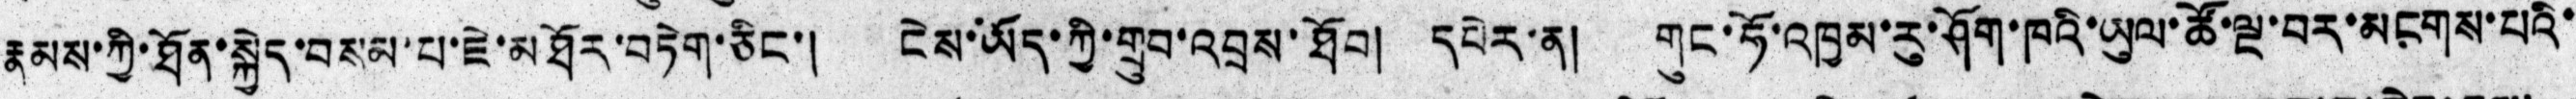རྣམས་ཀྱི་ཐོན་སྐྱེད་བསམ་པ་ཇེ་མཐོར་བཏེག་ཅིང་། ངེས་ཡོད་ཀྱི་གྲུབ་འབྲས་ཐོབ། དཔེར་ན། གུང་ཧོ་འཁྱམ་རུ་ཤོག་ཁའི་ཡུལ་ཚོ་ལྔ་བར་མངགས་པའི་
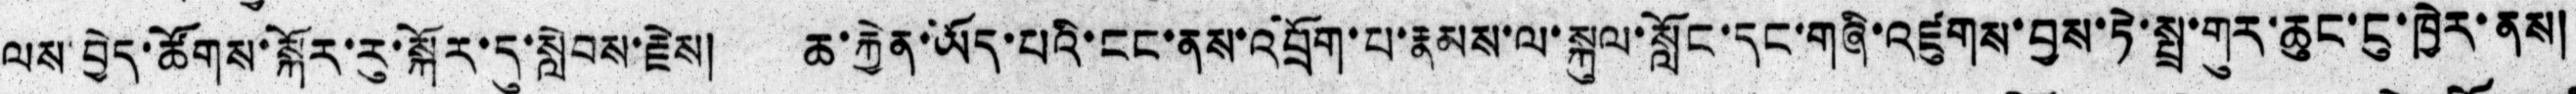ལས་བྱེད་ཚོགས་སྐོར་རུ་སྐོར་དུ་སླེབས་རྗེས། ཆ་རྐྱེན་ཡོད་པའི་ངང་ནས་འབྲོག་པ་རྣམས་ལ་སྐུལ་སློང་དང་གཞི་འཛུགས་བྱས་ཏེ་སྤྲ་གུར་ཆུང་ངུ་ཁྱེར་ནས།
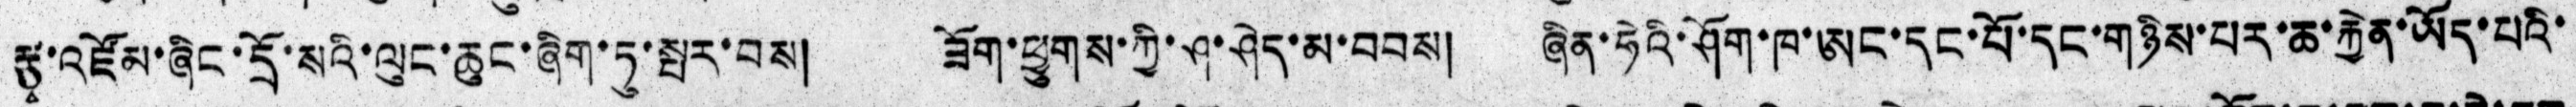རྩྭ་འཛོམ་ཞིང་དྲོ་སའི་ལུང་ཆུང་ཞིག་ཏུ་སྤར་བས།  ཟོག་ཕྱུགས་ཀྱི་ཤ་ཤེད་མ་བབས།  ཞིན་ཧེའི་ཤོག་ཁ་ཨང་དང་པོ་དང་གཉིས་པར་ཆ་རྐྱེན་ཡོད་པའི་
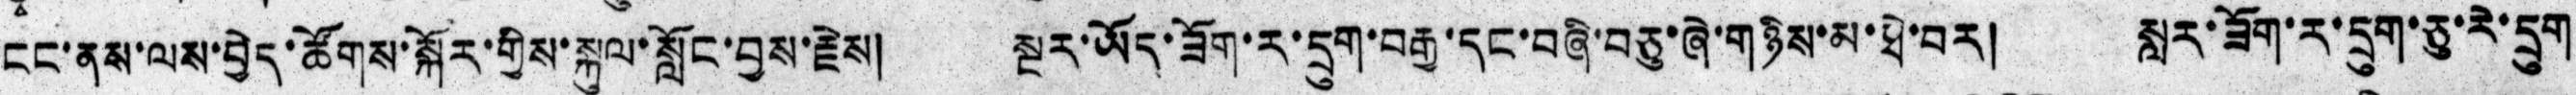ངང་ནས་ལས་བྱེད་ཚོགས་སྐོར་གྱིས་སྐུལ་སློང་བྱས་རྗེས། སྔར་ཡོད་ཟོག་ར་དྲུག་བརྒྱ་དང་བཞི་བཅུ་ཞེ་གཉིས་མ་ཐེ་བར། སླར་ཟོག་ར་དྲུག་ཅུ་རེ་དྲུག
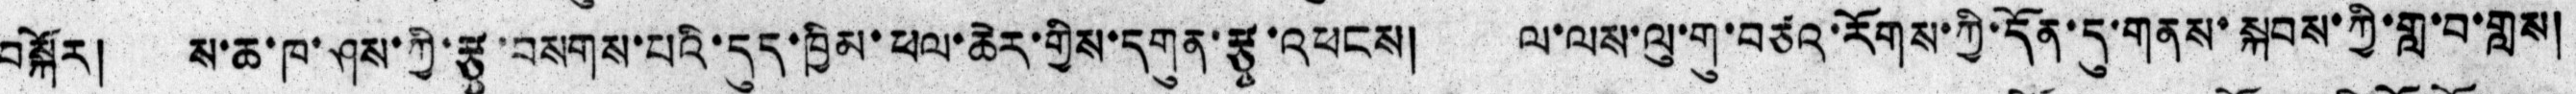བསྐོར།   ས་ཆ་ཁ་ཤས་ཀྱི་རྩྭ་བསགས་པའི་དུད་ཁྱིམ་ཕལ་ཆེར་གྱིས་དགུན་རྩྭ་འཕངས།  ལ་ལས་ལུ་གུ་བཙའ་རོགས་ཀྱི་དོན་དུ་གནས་སྐབས་ཀྱི་གླ་བ་གླས།
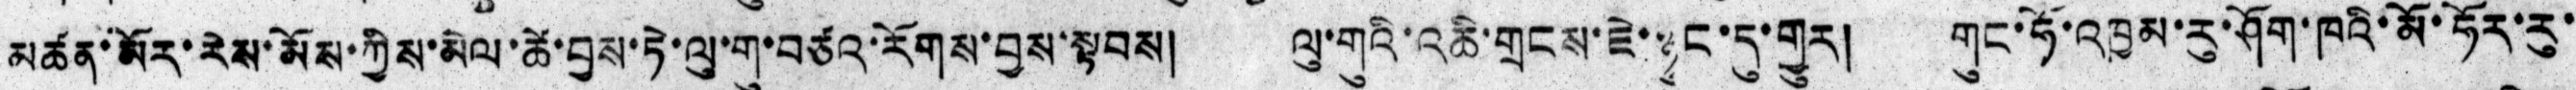མཚན་མོར་རེས་མོས་ཀྱིས་མེལ་ཚེ་བྱས་ཏེ་ལུ་གུ་བཙའ་རོགས་བྱས་སྟབས།  ལུ་གུའི་འཆི་གྲངས་ཇེ་ཉུང་དུ་གྱུར།  གུང་ཧོ་འཁྱམ་རུ་ཤོག་ཁའི་མོ་ཧོར་རུ་
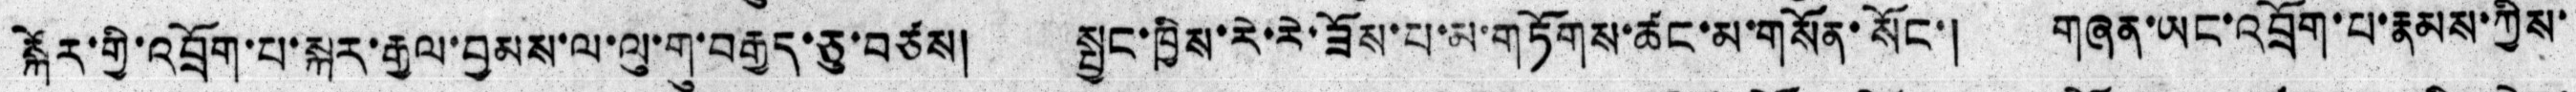སྐོར་གྱི་འབྲོག་པ་སྐར་རྒྱལ་བྱམས་ལ་ལུ་གུ་བརྒྱད་ཅུ་བཙས། སྤྱང་ཁྱིས་རེ་རེ་ཟོས་པ་མ་གཏོགས་ཚང་མ་གསོན་སོང་། གཞན་ཡང་འབྲོག་པ་རྣམས་ཀྱིས་
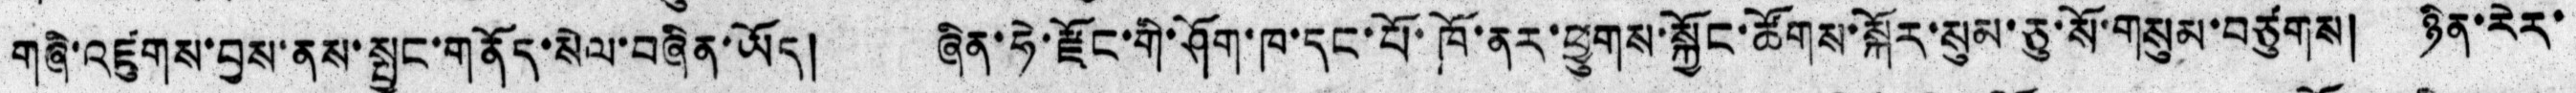གཞི་འཛུགས་བྱས་ནས་སྤྱང་གནོད་སེལ་བཞིན་ཡོད། ཞིན་ཧེ་རྫོང་གི་ཤོག་ཁ་དང་པོ་ཁོ་ནར་ཕྱུགས་སྐྱོང་ཚོགས་སྐོར་སུམ་ཅུ་སོ་གསུམ་བཙུགས། ཉིན་རེར་
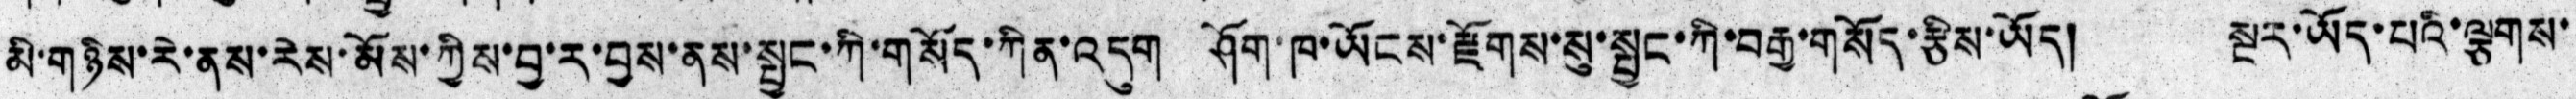མི་གཉིས་རེ་ནས་རེས་མོས་ཀྱིས་བྱ་ར་བྱས་ནས་སྤྱང་ཀི་གསོད་ཀིན་འདུག ཤོག་ཁ་ཡོངས་རྫོགས་སུ་སྦྱང་ཀི་བརྒྱ་གསོད་རྩིས་ཡོད། སྔར་ཡོད་པའི་ལྕགས་
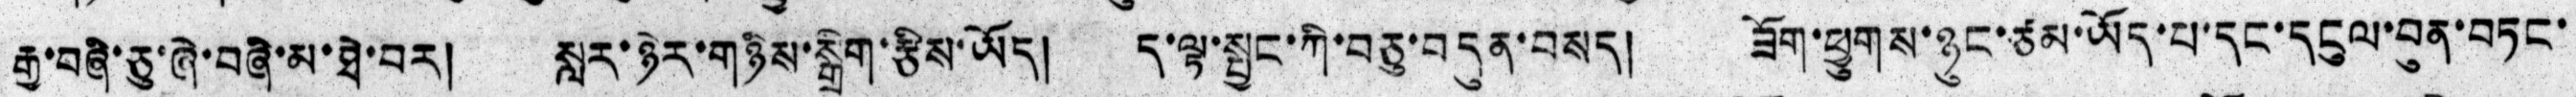རྒྱ་བཞི་ཅུ་ཞེ་བཞི་མ་ཐེ་བར།  སླར་ཉེར་གཉིས་སྒྲིག་རྩིས་ཡོད།  ད་ལྟ་སྤྱང་ཀི་བཅུ་བདུན་བསད།  ཟོག་ཕྱུགས་ཉུང་ཙམ་ཡོད་པ་དང་དངུལ་བུན་བཏང་
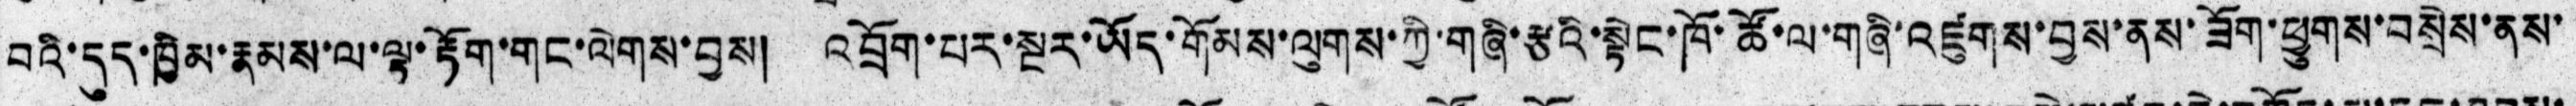བའི་དུད་ཁྱིམ་རྣམས་ལ་ལྟ་རྟོག་གང་ལེགས་བྱས།  འབྲོག་པར་སྔར་ཡོད་གོམས་ལུགས་ཀྱི་གཞི་རྩའི་སྟེང་ཁོ་ཚོ་ལ་གཞི་འཛུགས་བྱས་ནས་ཟོག་ཕྱུགས་བསྲེས་ནས་
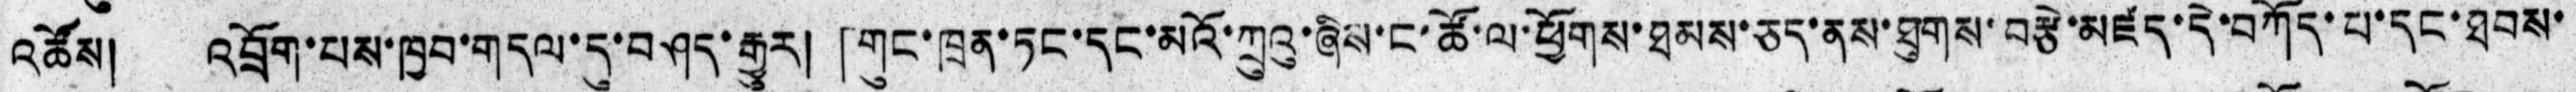འཚོས། འབྲོག་པས་ཁྱབ་གདལ་དུ་བཤད་རྒྱུར། 「གུང་ཁྲན་ཏང་དང་མའོ་ཀྲུའུ་ཞིས་ང་ཚོ་ལ་ཕྱོགས་ཐམས་ཅད་ནས་ཐུགས་བརྩེ་མཛད་དེ་བཀོད་པ་དང་ཐབས་
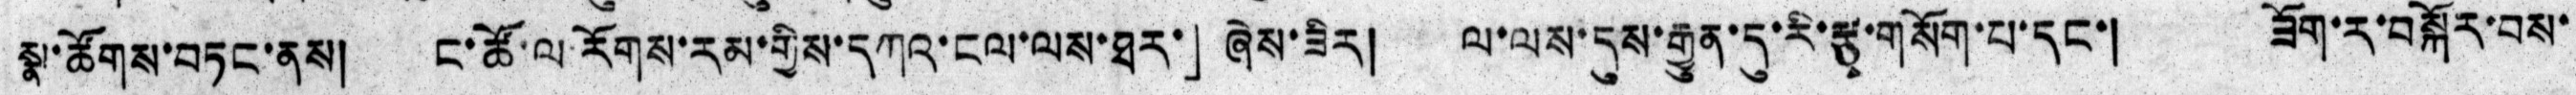སྣ་ཚོགས་བཏང་ནས།  ང་ཚོ་ལ་རོགས་རམ་གྱིས་དཀའ་ངལ་ལས་ཐར་」ཞེས་ཟེར།  ལ་ལས་དུས་རྒྱུན་དུ་རི་རྩྭ་གསོག་པ་དང་།  ཟོག་ར་བསྐོར་བས་
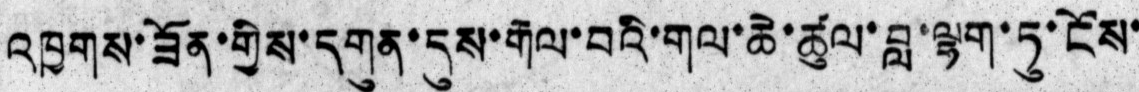འཁྱགས་ཟོན་གྱིས་དགུན་དུས་རྒལ་བའི་གལ་ཆེ་ཚུལ་བླ་ལྷག་ཏུ་ངོས་
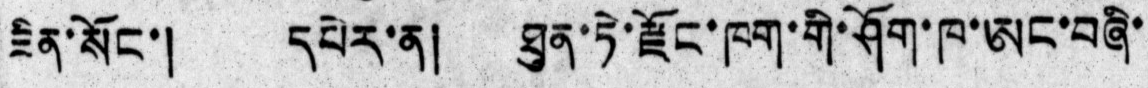ཟིན་སོང་།  དཔེར་ན།  ཐུན་ཏེ་རྫོང་ཁག་གི་ཤོག་ཁ་ཨང་བཞི་
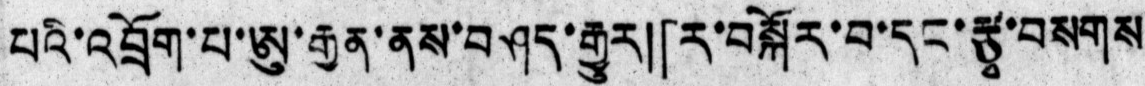པའི་འབྲོག་པ་ཨུ་རྒྱན་ནས་བཤད་རྒྱུར།「ར་བསྐོར་བ་དང་རྩྭ་བསགས
